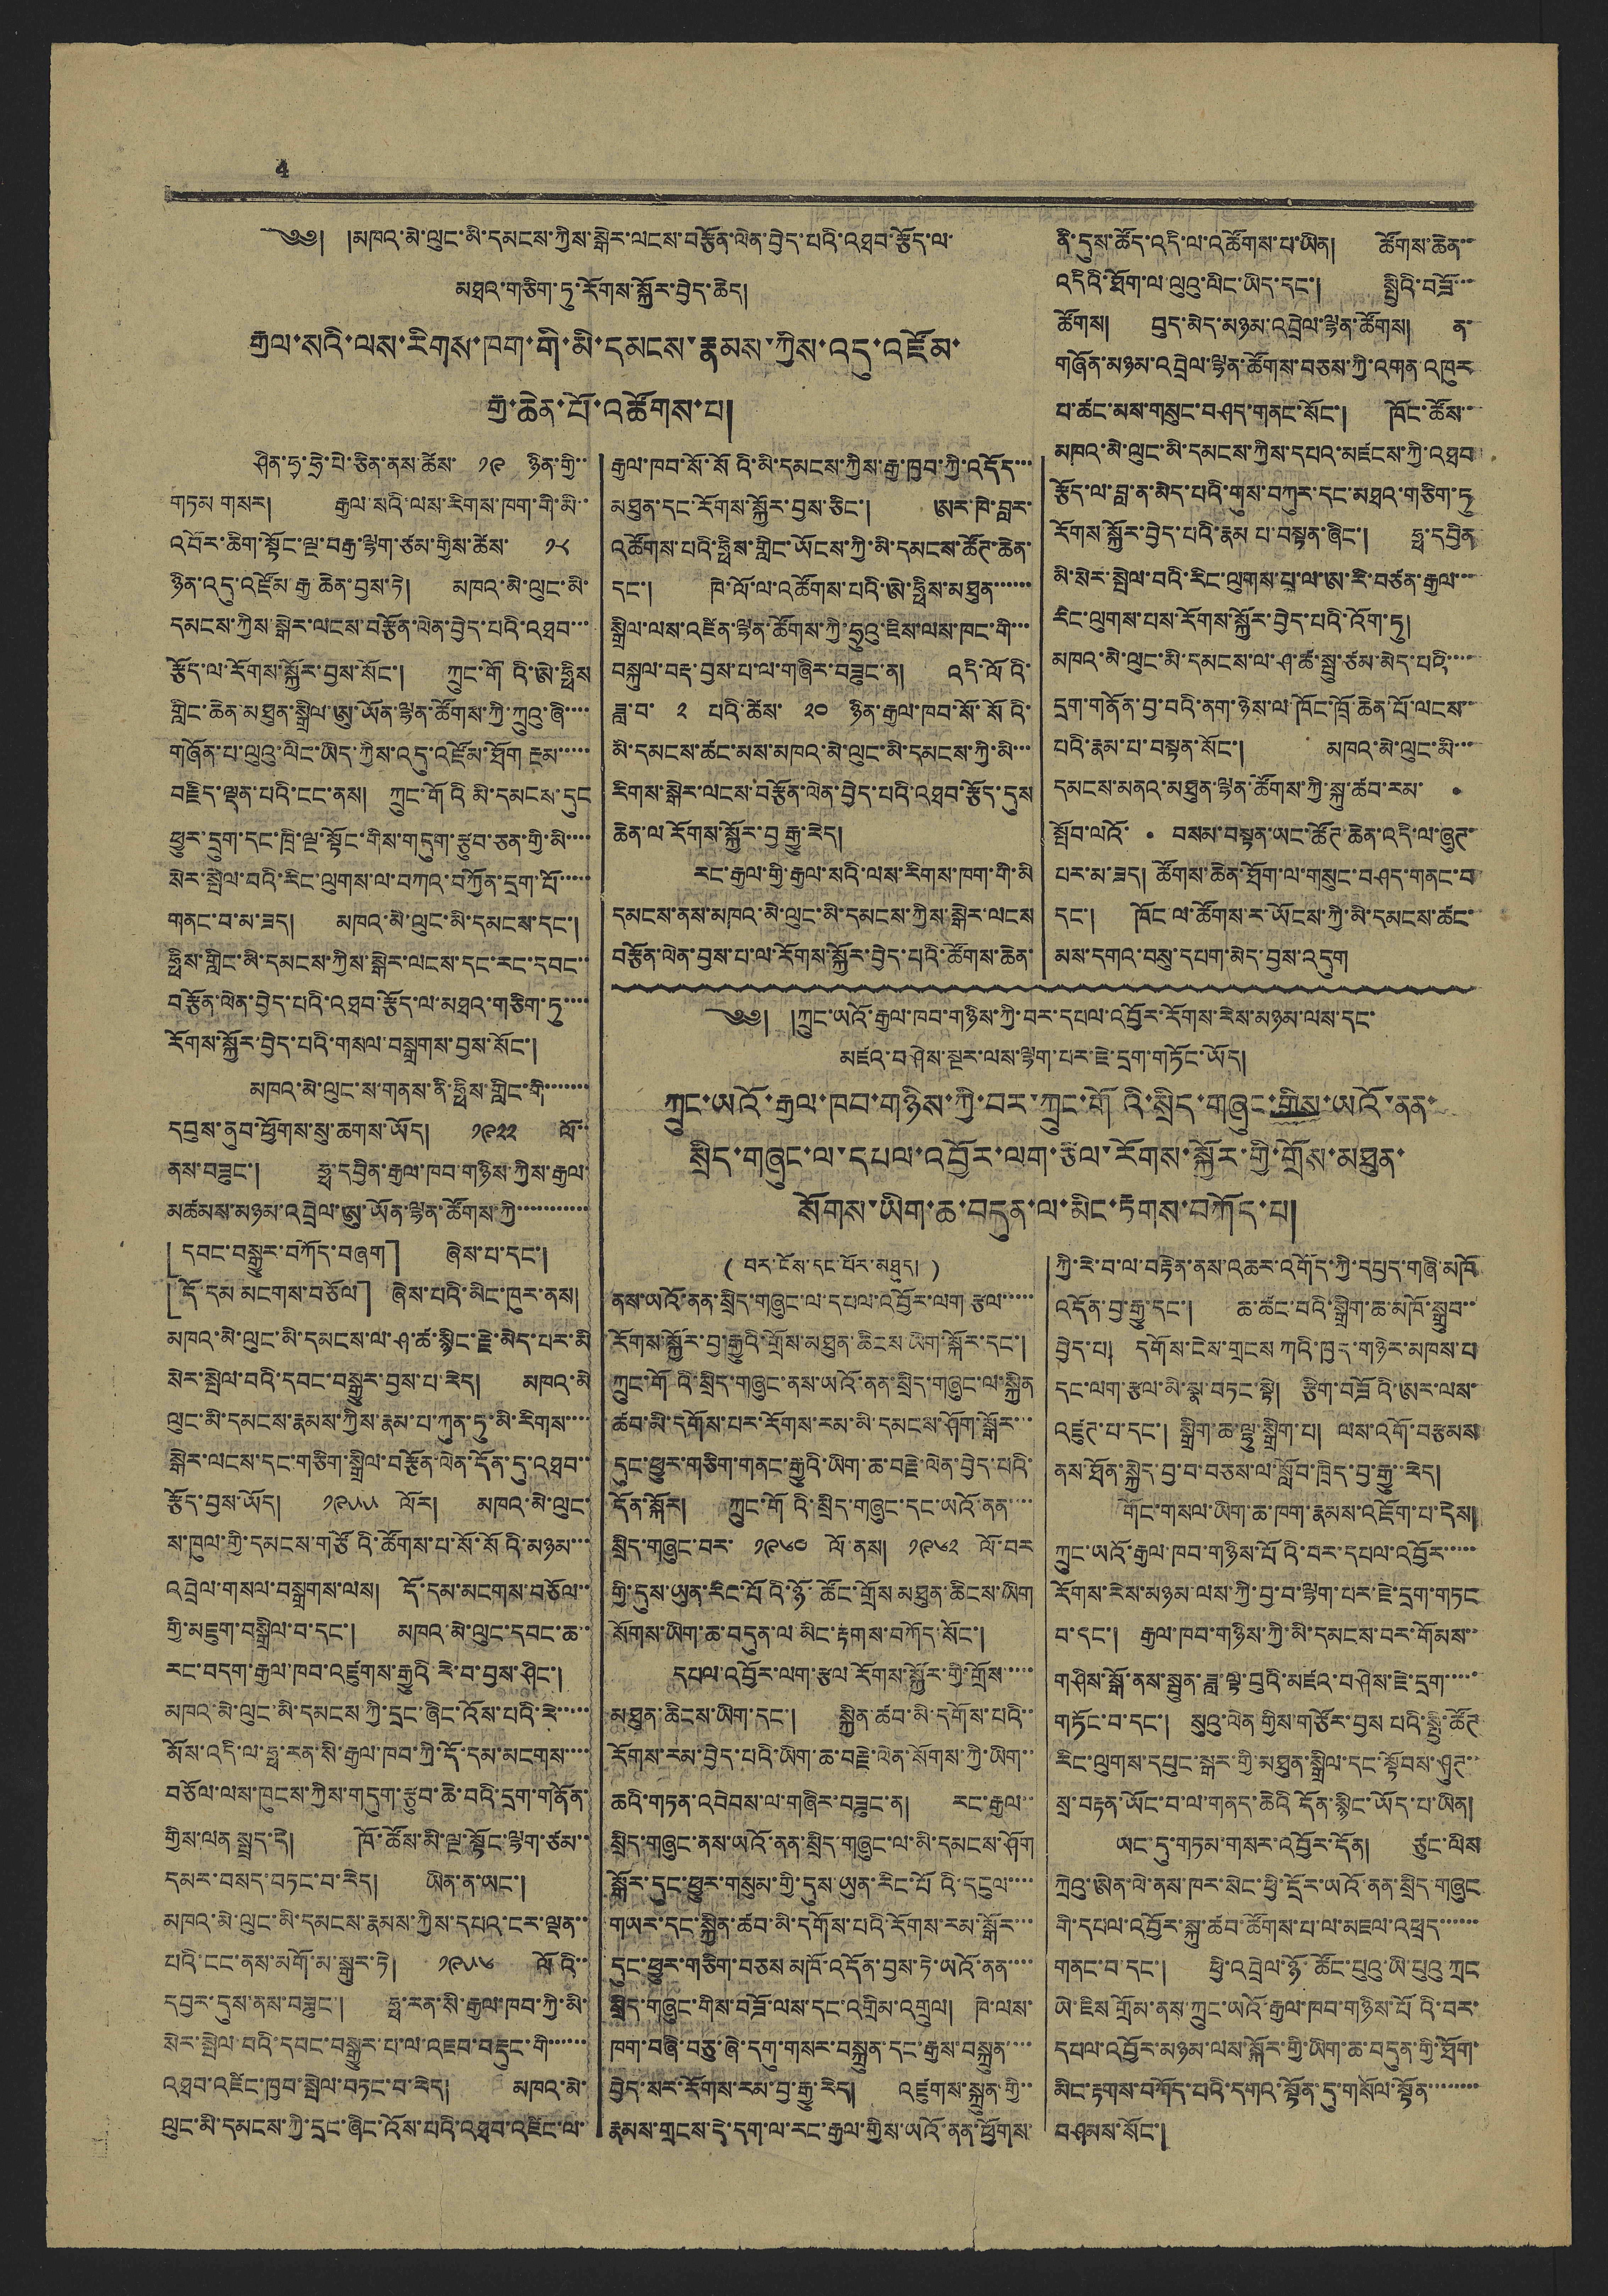4
༄༅། །མཁའ་མེ་ལུང་མི་དམངས་ཀྱིས་སྒེར་ལངས་བརྩོན་ལེན་བྱེད་པའི་འཐབ་རྩོད་ལ་
མཐའ་གཅིག་ཏུ་རོགས་སྐྱོར་བྱེད་ཆེད།
རྒྱལ་སའི་ལས་རིགས་ཁག་གི་མི་དམངས་རྣམས་ཀྱིས་འདུ་འཛོམ་
རྒྱ་ཆེན་པོ་འཚོགས་པ།
ཤིན་ཧྭ་ཧྲེ་པེ་ཅིན་ནས་ཚེས་ ༡༩ ཉིན་གྱི་་
གཏམ གསར། རྒྱལ་སའི་ལས་རིགས་ཁག་གི་མི་་
འབོར་ཆིག་སྟོང་ལྔ་བརྒྱ་ལྷག་ཙམ་གྱིས་ཚེས་ ༡༨
ཉིན་འདུ་འཛོམ་རྒྱ ཆེན་བྱས་ཏེ། མཁའ་མེ་ལུང་མི་
དམངས་ཀྱིས་སྒེར་ལངས་བརྩོན་ལེན་བྱེད་པའི་འཐབ་་་
རྩོད་ལ་རོགས་སྐྱོར་བྱས་སོང་། ཀྲུང་གོའི་ཨེ་ཧྥིས
གླིང་ཆེན་མཐུན་སྒྲིལ་ཨུ་ཡོན་ལྷན་ཚོགས་ཀྱི་ཀྲུའུ་ཞི་་་་
གཞོན་པ་ལུའུ་ལིང་ཡིད་ཀྱིས་འདུ་འཛོམ་ཐོག རྔམ་་་་་
བརྗིད་ལྡན་པའི་ངང་ནས། ཀྲུང་གོའི མི་དམངས་དུང
ཕྱུར་དྲུག་དང་ཁྲི་ལྔ་སྟོང་གིས་གདུག་རྩུབ་ཅན་གྱི་མི་་་་
སེར་སྤེལ་བའི་རིང་ལུགས་ལ་བཀའ་བཀྱོན་དྲག་པོ་་་་་
གནང་བ་མ་ཟད། མཁའ་མེ་ལུང་མི་དམངས་དང་།
ཧྥིལ་གླིང་མི་དམངས་ཀྱིས་སྒེར་ལངས་དང་རང་དབང་་
བརྩོན་ལེན་བྱེད་པའི་འཐབ་རྩོད་ལ་མཐའ་གཅིག་ཏུ་་་་
རོགས་སྐྱོར་བྱེད་པའི་གསལ་བསྒྲགས་བྱས་སོང་།
མཁའ་མེ་ལུང་ས་གནས་ནི་ཧྥིས་གླིང་གི་་་་་་་
དབུས་ནུབ་ཕྱོགས་སུ་ཆགས་ཡོད། ༡༩༢༢ ལོ་་
ནས་བཟུང་། ཧྥ་དབྱིན་རྒྱལ་ཁབ་གཉིས་ཀྱིས་རྒྱལ་
མཚམས་མཉམ་འབྲེལ་ཨུ་ཡོན་ལྷན་ཚོགས་ཀྱི་་་་་་་་་་་
「དབང་བསྒྱུར་བཀོད་བཞག」 ཞེས་པ་དང་།
「དོ་དམ མངགས་བཅོལ」 ཞེས་པའི་མིང་ཁུར་ནས།
མཁའ་མེ་ལུང་མི་དམངས་ལ་ཤ་ཚ་སྙིང་རྗེ་མེད་པར་མི
སེར་སྤེལ་བའི་དབང་བསྒྱུར་བྱས་པ་རེད། མཁའ་མེ
ལུང་མི་དམངས་རྣམས་ཀྱིས་རྣམ་པ་ཀུན་ཏུ་མི་རིགས་་་་
སྒེར་ལངས་དང་གཅིག་སྒྲིལ་བརྩོན་ལེན་དོན་དུ་འཐབ་་
རྩོད་བྱས་ཡོད། ༡༩༥༥ ལོར། མཁའ་མེ་ལུང་
ས་ཁུལ་གྱི་དམངས་གཙོའི་ཚོགས་པ་སོ་སོའི་མཉམ་་་
འབྲེལ་གསལ་བསྒྲགས་ལས། དོ་དམ་མངགས་བཅོལ་་
གྱི་མཇུག་བསྒྲིལ་བ་དང་། མཁའ་མེ་ལུང་དབང་ཆ་་
རང་བདག་རྒྱལ་ཁབ་འཛུགས་རྒྱུའི་རེ་བ་བྱས་ཤིང་།
མཁའ་མེ་ལུང་མི་དམངས་ཀྱི་དྲང་ཞིང་འོས་པའི་རེ་་་་་
མོས་འདི་ལ་ཧྥ་རན་སི་རྒྱལ་ཁབ་ཀྱི་དོ་དམ་མངགས་་་་
བཅོལ་ལས་ཁུངས་ཀྱིས་གདུག་རྩུབ་ཆེ་བའི་དྲག་གནོན་
གྱིས་ལན སྤྲད་དེ། ཁོ་ཚོས་མི་ལྔ་སྟོང་ལྷག་ཙམ་་
དམར་བསད་བཏང་བ་རེད། ཡིན་ན་ཡང་།
མཁའ་མེ་ལུང་མི་དམངས་རྣམས་ཀྱིས་དཔའ་ངར་ལྡན་་
པའི་ངང་ནས་མགོ་མ་སྒུར་ཏེ། ༡༩༥༦ ལོའི་་
དབྱར་དུས་ནས་བཟུང་། ཧྥ་རན་སི་རྒྱལ་ཁབ་ཀྱི་མི་
སེར་སྤེལ་བའི་དབང་བསྒྱུར་པ་ལ་འཇབ་བརྡུང་གི་་་་་་
འཐབ་འཛིང་ཁྱབ་སྤེལ་བཏང་བ་རེད། མཁའ་མེ་
ལུང་མེ་དམངས་ཀྱི་དྲང་ཞིང་འོས་པའི་འཐབ་འཛིང་ལ་
རྒྱལ་ཁབ་སོ་སོའི་མི་དམངས་ཀྱིས་རྒྱ་ཁྱབ་ཀྱི་འདོད་་་
མཐུན་དང་རོགས་སྐྱོར་བྱས་ཅིང་། ཨར་ཁེ་བླར་
འཚོགས་པའི་ཧྥིས་གླིང་ཡོངས་ཀྱི་མི་དམངས་ཚོཊ་ཆེན་
དང་། ཁེ་ལོ་ལ་འཚོགས་པའི་ཨེ་ཧྥིས་མཐུན་་་་་་
སྒྲིལ་ལས་འཛིན་ལྷན་ཚོགས་ཀྱི་ཧྲུའུ་ཇིས་ལས་ཁང་གི་་་
བསྐུལ་བརྡ་བྱས་པ་ལ་གཞིར་བཟུང་ན། འདི་ལོའི་
ཟླ་བ་ ༢ པའི་ཚེས་ ༢༠ ཉིན་རྒྱལ་ཁབ་སོ་སོའི་
མི་དམངས་ཚང་མས་མཁའ་མེ་ལུང་མི་དམངས་ཀྱི་མི་་་
རིགས་སྒེར་ལངས་བརྩོན་ལེན་བྱེད་པའི་འཐབ་རྩོད་དུས
ཆེན་ལ རོགས་སྐྱོར་བྱ རྒྱུ་རེད།
རང་རྒྱལ་གྱི་རྒྱལ་སའི་ལས་རིགས་ཁག་གི་མི
དམངས་ནས་མཁའ་མེ་ལུང་མི་དམངས་ཀྱིས་སྒེར་ལངས
བརྩོན་ལེན་བྱས་པ་ལ་རོགས་སྐྱོར་བྱེད་པའི་ཚོགས་ཆེན་
ནི་དུས་ཚོད་འདི་ལ་འཚོགས་པ་ཡིན། ཚོགས་ཆེན་་
འདིའི་ཐོག་ལ་ལུའུ་ལིང་ཡིད་དང་། སྤྱིའི་བཟོ་་་
ཚོགས། བུད་མེད་མཉམ་འབྲེལ་ལྷན་ཚོགས། ན་
གཞོན་མཉམ་འབྲེལ་ལྷན་ཚོགས་བཅས་ཀྱི་འགན་འཁུར
པ་ཚང་མས་གསུང་བཤད་གནང་སོང་། ཁོང་ཚོས་་
མཁའ་མེ་ལུང་མི་དམངས་ཀྱིས་དཔའ་མཛངས་ཀྱི་འཐབ
རྩོད་ལ་བླ་ན་མེད་པའི་གུས་བཀུར་དང་མཐའ་གཅིག་ཏུ
རོགས་སྐྱོར་བྱེད་པའི་རྣམ པ་བསྟན་ཞིང་། ཧྥ་དབྱིན
མི་སེར་སྤེལ་བའི་རིང་ལུགས་པ་ལ་ཨ་རི་བཙན་རྒྱལ་་་
རིང་ལུས་པས་རོགས་སྐྱོར་བྱེད་པའི་འོག་ཏུ།
མཁའ་མེ་ལུང་མི་དམངས་ལ་ཤ་ཚ་སྤུ་ཙམ་མེད་པའི་་་་
དྲག་གནོན་བྱ་བའི་ནག་ཉེས་ལ་ཁོང་ཁྲོ་ཆེན་པོ་ལངས་་
པའི་རྣམ་པ་བསྟན་སོང་། མཁའ་མེ་ལུང་མི་་་
དམངས་མནའ་མཐུན་ལྷན་ཚོགས་ཀྱི་སྐུ་ཚབ་རམ་ .
སྤོབ་ལའོ་ . བསམ་བསྟན་ཡང་ཚོཊ་ཆེན་འདི་ལ་ཞུཊ་
པར་མ་ཟད། ཚོགས་ཆེན་ཐོག་ལ་གསུང་བཤད་གནང་བ
དང་། ཁོང་ལ་ཚོགས་ར་ཡོངས་ཀྱི་མི་དམངས་ཚང་
མས་དགའ་བསུ་དཔག་མེད་བྱས་འདུག
༄༅། །ཀྲུང་ཡའོ་རྒྱལ་ཁབ་གཉིས་ཀྱི་བར་དཔལ་འབྱོར་རོགས་རེས་མཉམ་ལས་དང་
མཛའ་བཤེས་སྔར་ལས་ལྷག་པར་ཇེ་དྲག་གཏོང་ཡོད།
ཀྲུང་ཡའོ་རྒྱལ་ཁབ་གཉིས་ཀྱི་བར་ཀྲུང་གོའི་སྲིད་གཞུང་གིས་ཡའོ་ནན་
སྲིད་གཞུང་ལ་དཔལ་འབྱོར་ལག་རྩལ་རོགས་སྐྱོར་གྱི་གྲོས་མཐུན་
སོགས་ཡིག་ཆ་བདུན་ལ་མིང་རྟགས་བཀོད་པ།
( བར་ངོས་དང་པོར་མཐུད། )
ནས་ཡའོ་ནན་སྲིད་གཞུང་ལ་དཔལ་འབྱོར་ལག་རྩལ་་་་་
རོགས་སྐྱོར་བྱ་རྒྱུའི་གྲོས་མཐུན་ཆིངས་ཡིག་སྐོར་དང་།
ཀྲུང་གོའི་སྲིད་གཞུང་ནས་ཡའོ་ནན་སྲིད་གཞུང་ལ་སྐྱིན
ཚབ་མི་དགོས་པར་རོགས་རམ་མི་དམངས་ཤོག་སྒོར་་་
དུང་ཕྱུར་གཅིག་གནང་རྒྱུའི་ཡིག་ཆ་བརྗེ་ལེན་བྱེད་པའི་
དོན་སྐོར། ཀྲུང་གོའི་སྲིད་གཞུང་དང་ཡའོ་ནན་་་་
སྲིད་གཞུང་བར་ ༡༩༦༠ ལོ་ནས། ༡༩༦༢ ལོ་བར
གྱི་དུས་ཡུན་རིང་པོའི་ཉོ་ཚོང་གྲོས མཐུན་ཆིངས་ཡིག
སོགས་ཡིག་ཆ་བདུན་ལ མིང་རྟགས་བཀོད་སོང་།
དཔལ་འབྱོར་ལག་རྩལ རོགས་སྐྱོར་གྱི་གྲོས་་་་་
མཐུན་ཆིངས་ཡིག་དང་། སྐྱིན་ཚབ་མི་དགོས་པའི་་
རོགས་རམ་བྱེད་པའི་ཡིག་ཆ་བརྗེ་ལེན་སོགས་ཀྱི་ཡིག་་
ཆའི་གཏན་འབེབས་ལ་གཞིར་བཟུང་ན། རང་རྒྱལ་་
སྲིད་གཞུང་ནས་ཡའོ་ནན་སྲིད་གཞུང་ལ་མི་དམངས་ཤོག
སྒོར་དུང་ཕྱུར་གསུམ་གྱི་དུས་ཡུན་རིང་པོའི་དངུལ་་་་
གཡར་དང་སྐྱིན་ཚབ་མི་དགོས་པའི་རོགས་རམ་སྒོར་་་
དུང་ཕྱུར་གཅིག་བཅས མཁོ་འདོན་བྱས་ཏེ་ཡའོ་ནན་་་་
སྲིད་གཞུང་གིས་བཟོ་ལས་དང་འགྲིམ་འགྲུལ། ཁེ་ལས་
ཁག་བཞི་བཅུ་ཞེ་དགུ་གསར་བསྐྲུན་དང་རྒྱས་བསྐྲུན་་་་
བྱེད་སར་རོགས་རམ་བྱ་རྒྱུ་རེད། འཛུགས་སྐྲུན་གྱི་་
རྣམས་གྲངས་དེ་དག་ལ་རང་རྒྱལ་གྱིས་ཡའོ་ནན་ཕྱོགས་
ཀྱི་རེ་བ་ལ་བརྟེན་ནས་འཆར་འགོད་ཀྱི་དཔྱད་གཞི་མཁོ
འདོན་བྱ་རྒྱུ་དང་། ཆ་ཚང་བའི་སྒྲིག་ཆ་མཁོ་སྒྲུབ་་
བྱེད་པ། དགོས་ངེས་གྲངས ཀའི་ཁྱད་གཉེར་མཁས་པ
དང་ལག་རྩལ་མི་སྣ་བཏང་སྟེ། རྩིག་བཟོའི་ཨར་ལས་
འཛུཊ་པ་དང་། སྒྲིག་ཆ་ལྷུ་སྒྲིག་པ། ལས་འགོ་བརྩམས
ནས་ཐོན་སྐྱེད་བྱ་བ་བཅས་ལ་སློབ་ཁྲིད་བྱ་རྒྱུ་་རེད།
གོང་གསལ་ཡིག་ཆ་ཁག་རྣམས་འཇོག་པ་དེས།
ཀྲུང་ཡའོ་རྒྱལ་ཁབ་གཉིས་པོའི་བར་དཔལ་འབྱོར་་་་་
རོགས་རེས་མཉམ་ལས་ཀྱི་བྱ་བ་ལྷག་པར་ཇེ་དྲག་གཏང
བ་དང་། རྒྱལ་ཁབ་གཉིས་ཀྱི་མི་དམངས་བར་གོམས་་
གཤིས་སྒོ་ནས་སྤུན་ཟླ་བུའི་མཛའ་བཤེས་ཇེ་དྲག་་་་་
གཏོང་བ་དང་། སུའུ་ལེན གྱིས་གཙོར་བྱས པའི་སྤྱི་ཚོཊ
རིང་ལུགས་དཔུང་སྒར་གྱི་མཐུན་སྒྲིལ་དང་སྟོབས་ཤུཊ་་
སྲ་བརྟན་ཡོང་བ་ལ་གནད་ཆེའི དོན་སྙིང་ཡོད་པ་ཡིན།
ཡང་དུ་གཏམ་གསར་འབྱོར་དོན། ཙུང་ལིས
ཀྲིའུ་ཨེན་ལེ་ནས་ཁར་སེང་ཕྱི་དྲོར་ཡའོ་ནན་སྲིད་གཞུང
གི་དཔལ་འབྱོར་སྐུ་ཚབ་ཚོགས་པ་ལ་མཇལ་འཕྲད་་་་་་
གནང་བ་དང་། ཕྱི་འབྲེལ་ཉོ་ཚོང་པུའུ་ཡི་པུའུ ཀྲང
ཡེ་ཇིས གྲོམ་ནས་ཀྲུང་ཡའོ་རྒྱལ་ཁབ་གཉིས་པོའི་བར་
དཔལ་འབྱོར་མཉམ་ལས་སྐོར་གྱི་ཡིག་ཆ་བདུན་གྱི་ཐོག་
མིང་རྟགས་བཀོད་པའི་དགའ་སྟོན་དུ་གསོལ་སྟོན་་་་་་་་
བཤམས་སོང་།
